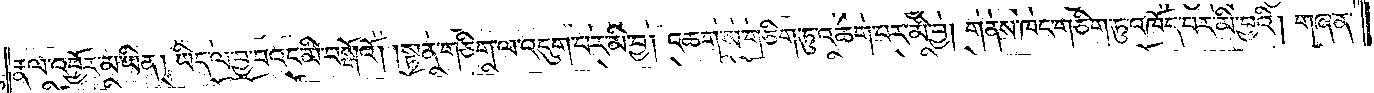རྣལ་འབྱོར་མ་ཡིན། ཡིད་ལ་བྱ་བའང་མི་བསྒོའོ། །སྟན་གཅིག་ལ་འདུག་པར་མི་བྱ། འཆག་ས་གཅིག་ཏུ་འཆག་པར་མི་བྱ། གནས་ཁང་གཅིག་ཏུ་འཁོད་པར་མི་བྱའི། གཞན་
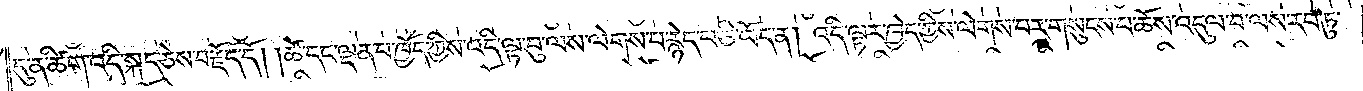དུ་ན་ཚིག་འདི་སྐད་ཅེས་བརྗོད་དོ། །ཚེ་དང་ལྡན་པ་ཁྱོད་ཀྱིས་འདི་ལྟ་བུ་ལས་ལེགས་བ་རྙེད་པ་ཅི་ཡོད་ན། འདི་ལྟར་ཁྱེད་ཀྱིས་ལེགས་པར་གསུངས་པ་ཆོས་འདུལ་བ་ལས་རབ་ཏུ་
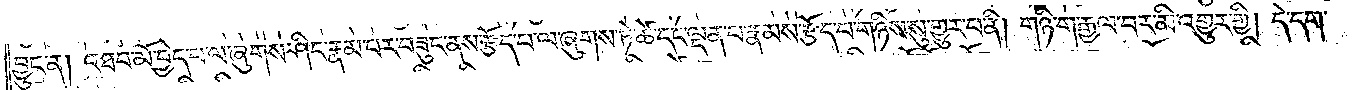བྱུང་ན། འཐབ་མོ་བྱེད་པ་ལ་ཞུགས་ཤིང་རྣམ་པར་བཟུང་ནས་རྩོད་པ་ལ་ཞུགས་ཏེ་ཚེ་དང་ལྡན་པ་རྣམས་རྩོད་པ་གཉིས་སུ་གྱུར་པ་ནི། གཉི་ག་རྒྱལ་བར་མི་འགྱུར་གྱི། དེ་དག་
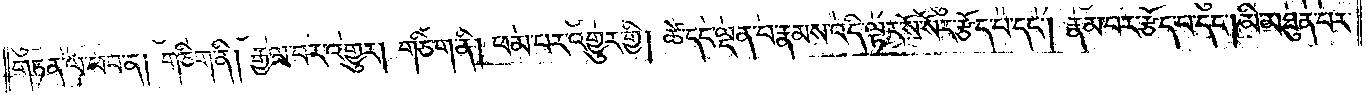གཏན་ལ་ཕབ་ན། གཅིག་ནི། རྒྱལ་བར་འགྱུར། གཅིག་ནི། ཕམ་པར་འགྱུར་གྱི། ཚེ་དང་ལྡན་པ་རྣམས་འདི་ལྟར་སོ་སོར་རྩོད་པ་དང༌། རྣམ་པར་རྩོད་པ་དང༌། མི་མཐུན་པར་
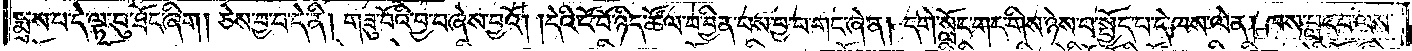སྨྲས་པ་དེ་ལྟ་བུ་ཐོང་ཞིག །ཅེས་བྱ་བ་དེ་ནི། གཟུ་བོའི་བྱ་བ་ཞེས་བྱའོ། །དེའི་ངོ་བོ་ཉིད་ཚོལ་བ་བྱིན་པས་བྱ་བ་གང་ཞེ་ན། དགེ་སློང་གང་གིས་ཉེས་པ་སྤྱོད་པ་དེ་ཁས་ལེན། ཁས་བླང་བ་ལས་
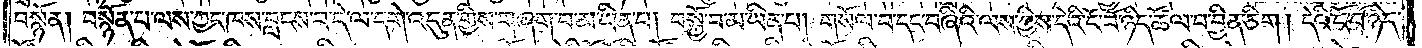བསྙོན། བསྙོན་པ་ལས་ཀྱང་ཁས་བླངས་པ་དེ་ལ་དགེ་འདུན་གྱིས་གཞག་པ་མ་ཡིན་པ། བསྐྱོ་བ་མ་ཡིན་པ། གསོལ་བ་དང་བཞིའི་ལས་ཀྱིས་དེའི་ངོ་བོ་ཉིད་ཚོལ་བ་བྱིན་ཅིག །དེའི་ངོ་བོ་ཉིད་
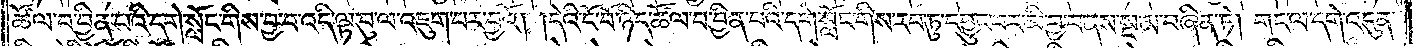ཚོལ་བ་བྱིན་པའི་དགེ་སློང་གིས་བྱ་བ་འདི་ལྟ་བུ་ལ་འཇུག་པར་བྱའོ། །དེའི་ངོ་བོ་ཉིད་ཚོལ་བ་བྱིན་པའི་དགེ་སློང་གིས་རབ་ཏུ་དབྱུང་བར་མི་བྱ་བ་ནས་སྔ་མ་བཞིན་ཏེ། གང་ལ་དགེ་འདུན་
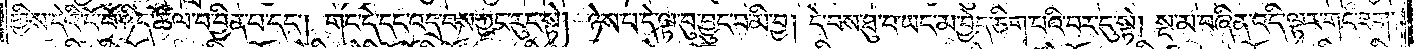གྱིས་དེའི་ངོ་བོ་ཉིད་ཚོལ་བ་བྱིན་པ་དང༌། གང་དེ་དང་འདྲ་བས་ཀྱང་རུང་སྟེ། ཉེས་པ་དེ་ལྟ་བུ་བྱུང་བ་མི་བྱ། དེ་བས་ཐུ་བ་ཡང་མ་བྱེད་ཅིག་པའི་བར་དུ་སྟེ། སྔ་མ་བཞིན་འདི་ལྟར་གང་ཟག་
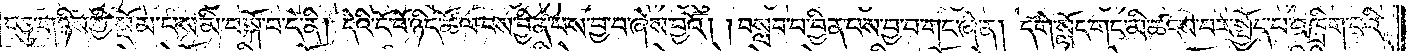བཅུ་གཉིས་ཀྱི་སྡོམ་པས་མི་བསྐོ་བ་དེ་ནི། དེའི་ངོ་བོ་ཉིད་ཚོལ་བས་བྱིན་པས་བྱ་བ་ཞེས་བྱའོ། །བསླབ་པ་བྱིན་པས་བྱ་བ་གང་ཞེ་ན། དགེ་སློང་གང་མི་ཚངས་པར་སྤྱོད་པ་འཁྲིག་པའི་
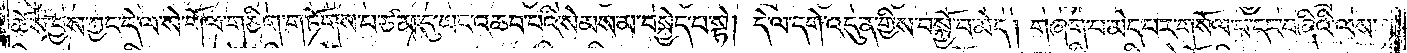ཆོས་བྱས་ཀྱང་དེ་ལ་སེ་གོལ་གཅིག་གཏོགས་པ་ཙམ་དུ་ཡང་འཆབ་པའི་སེམས་མ་བསྐྱེད་པ་སྟེ། དེ་ལ་དགེ་འདུན་གྱིས་བསྐྱོ་བ་མེད། གཞག་པ་མེད་པར་གསོལ་བ་དང་བཞིའི་ལས་
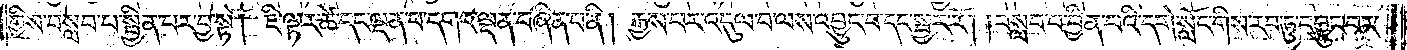ཀྱིས་བསླབ་པ་སྦྱིན་པར་བྱ་སྟེ། ཇི་ལྟར་ཚེ་དང་ལྡན་པ་དགའ་ལྡན་བཞིན་པ་ནི། རྒྱས་པར་འདུལ་བ་ལས་འབྱུང་བ་དང་སྦྱར་རོ། །བསླབ་པ་བྱིན་པའི་དགེ་སློང་གིས་རབ་ཏུ་དབྱུང་བར་
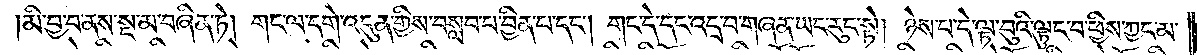མི་བྱ་བ་ནས་སྔ་མ་བཞིན་ཏེ། གང་ལ་དགེ་འདུན་གྱིས་བསླབ་པ་བྱིན་པ་དང༌། གང་དེ་དང་འདྲ་བ་གཞན་ཡང་རུང་སྟེ། ཉེས་པ་དེ་ལྟ་བུའི་ལྟུང་བ་ཕྱིས་ཀྱང་མ་
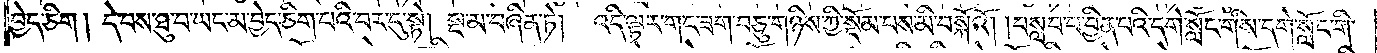བྱེད་ཅིག །དེ་བས་ཐུ་བ་ཡང་མ་བྱེད་ཅིག་པའི་བར་དུ་སྟེ། སྔ་མ་བཞིན་ཏེ། འདི་ལྟར་གང་ཟག་བཅུ་གཉིས་ཀྱི་སྡོམ་པས་མི་བསྐོའོ། །བསླབ་པ་བྱིན་པའི་དགེ་སློང་གིས་དགེ་སློང་གི་
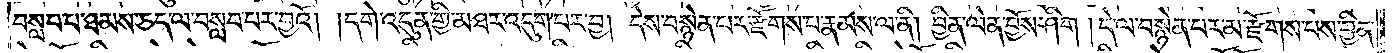བསླབ་པ་ཐམས་ཅད་ལ་བསླབ་པར་བྱའོ། །དགེ་འདུན་གྱི་མཐར་འདུག་པར་བྱ། དེས་བསྙེན་པར་རྫོགས་པ་རྣམས་ལ་ནི། བྱིན་ལེན་བྱོས་ཤིག །དེ་ལ་བསྙེན་པར་མ་རྫོགས་པས་བྱིན་
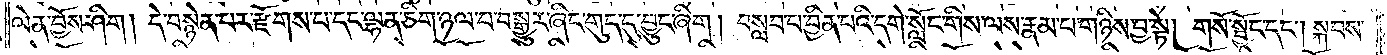ལེན་བྱོས་ཤིག །དེ་བསྙེན་པར་རྫོགས་པ་དང་ལྷན་ཅིག་ཉལ་བ་བསྒྱུར་ཞིང་གུད་དུ་བྱུང་ཞིག །བསླབ་པ་བྱིན་པའི་དགེ་སློང་གིས་ལས་རྣམ་པ་གཉིས་བྱ་སྟེ། གསོ་སྦྱོང་དང༌། སྐབས་
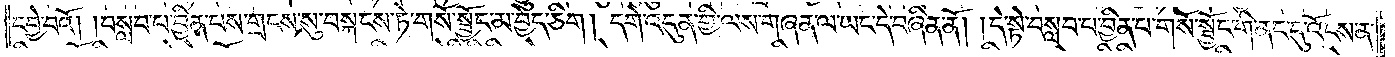དབྱེ་བའོ། །བསླབ་པ་བྱིན་པས་གྲངས་སུ་བསྐངས་ཏེ་གསོ་སྦྱོང་མ་བྱེད་ཅིག །དགེ་འདུན་གྱི་ལས་གཞན་ལ་ཡང་དེ་བཞིན་ནོ། །དེ་སྟེ་བསླབ་པ་བྱིན་པ་གསོ་སྦྱོང་གི་ནང་དུ་འོངས་ན་
